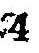4
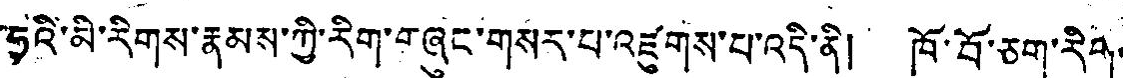ཧྭའི་མི་རིགས་རྣམས་ཀྱི་རིག་གཞུང་གསར་པ་འཛུགས་པ་འདི་ནི། ཁོ་བོ་ཅག་རིག་
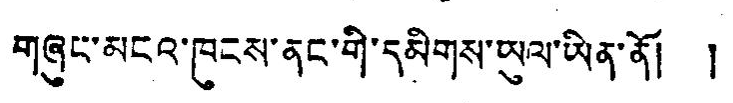གཞུང་མངའ་ཁུངས་ནང་གི་དམིགས་ཡུལ་ཡིན་ནོ། །
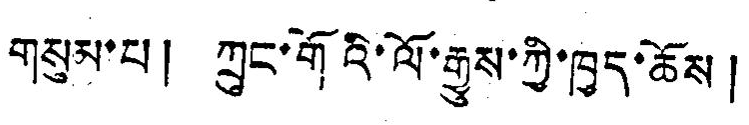གསུམ་པ། ཀྲུང་གོའི་ལོ་རྒྱུས་ཀྱི་ཁྱད་ཆོས།
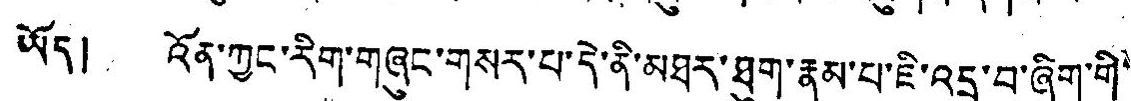ཡོད། འོན་ཀྱང་རིག་གཞུང་གསར་པ་དེ་ནི་མཐར་ཐུག་རྣམ་པ་ཇི་འདྲ་བ་ཞིག་གི་
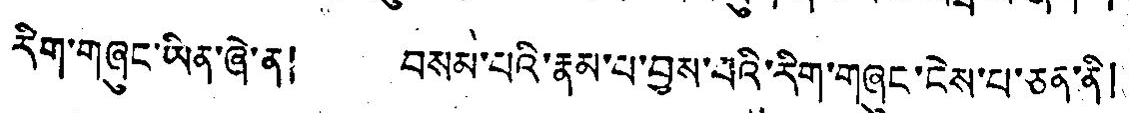རིག་གཞུང་ཡིན་ཞེ་ན། བསམ་པའི་རྣམ་པ་བྱས་པའི་རིག་གཞུང་ངེས་པ་ཅན་ནི།
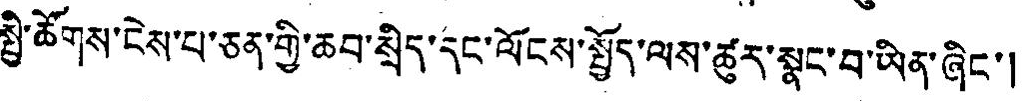སྤྱི་ཚོགས་ངེས་པ་ཅན་གྱི་ཆབ་སྲིད་དང་ལོངས་སྤྱོད་ལས་ཚུར་སྣང་བ་ཡིན་ཞིང་།
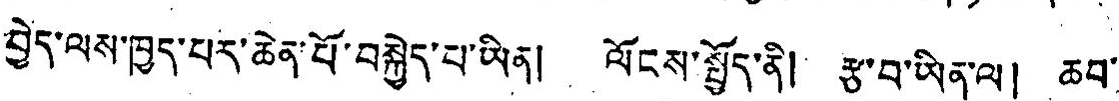བྱེད་ལས་ཁྱད་པར་ཆེན་པོ་བསྐྱེད་པ་ཡིན། ལོངས་སྤྱོད་ནི། རྩ་བ་ཡིན་ལ། ཆབ་
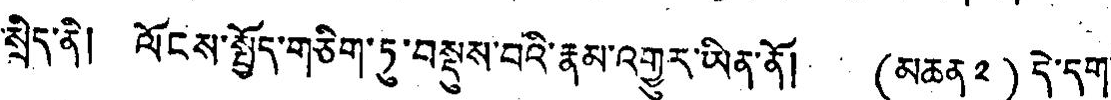སྲིད་ནི། ལོངས་སྤྱོད་གཅིག་ཏུ་བསྡུས་བའི་རྣམ་འགྱུར་ཡིན་ནོ། (མཆན ༢) དེ་དག་
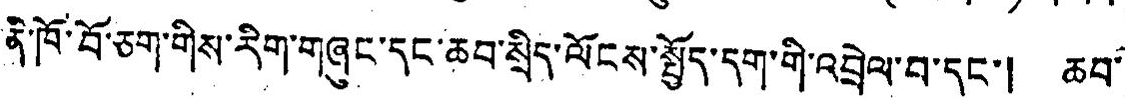ན་ཁོ་བོ་ཅག་གིས་རིག་གཞུང་དང་ཆབ་སྲིད་ལོངས་སྤྱོད་དག་གི་འབྲེལ་བ་དང་། ཆབ་
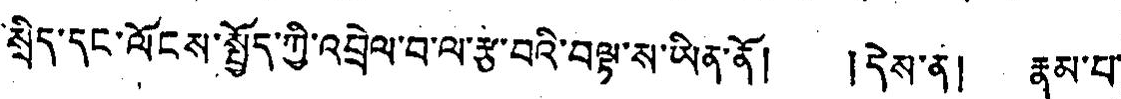སྲིད་དང་ལོངས་སྤྱོད་ཀྱི་འབྲེལ་བ་ལ་རྩ་བའི་བལྟ་ས་ཡིན་ནོ། །དེས་ན། རྣམ་པ་
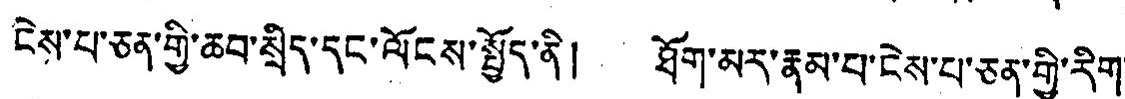ངེས་པ་ཅན་གྱི་ཆབ་སྲིད་དང་ལོངས་སྤྱོད་ནི། ཐོག་མར་རྣམ་པ་ངེས་པ་ཅན་གྱི་རིག་
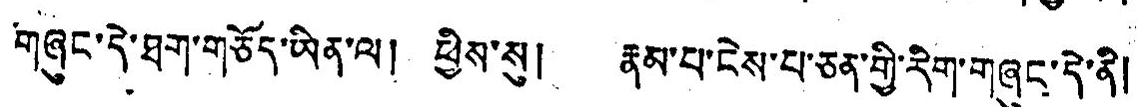གཞུང་དེ་ཐག་གཅོད་ཡིན་ལ། ཕྱིས་སུ། རྣམ་པ་ངེས་པ་ཅན་གྱི་རིག་གཞུང་དེ་ནི།
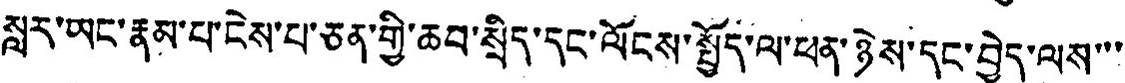སླར་ཡང་རྣམ་པ་ངེས་པ་ཅན་གྱི་ཆབ་སྲིད་དང་ལོངས་སྤྱོད་ལ་ཕན་ཉེས་དང་བྱེད་ལས་་་
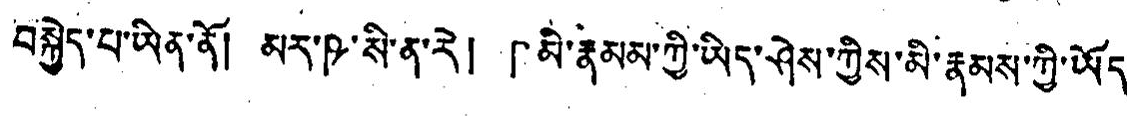བསྐྱེད་པ་ཡིན་ནོ། མར་ཥ་སི་ན་རེ། 「མི་རྣམམ་ཀྱི་ཡིད་ཤེས་ཀྱིས་མི་རྣམས་ཀྱི་ཡོད་
